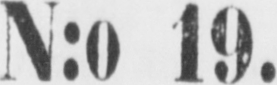N:o 19.
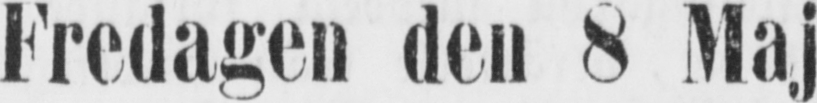Fredagen den 8 Maj
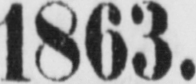1863.
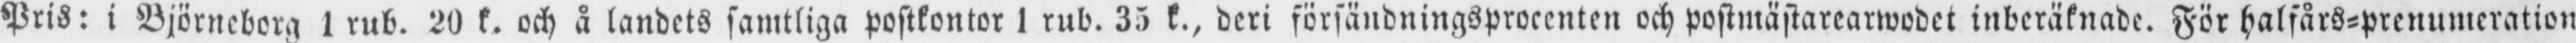Pris: i Björneborg 1 rub. 20 k. och å landets samtliga postkontor 1 rub. 35 k., deri försändningsprocenten och postmästarearwodet inberäknade. För halfårs-prenumeration
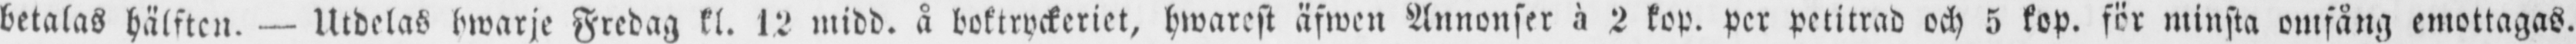betalas hälften. — Utdelas hwarje Fredag kl. 12 midd. å boktryckeriet, hwarest äfwen Annonser à 2 kop. per petitrad och 5 kop. för minsta omfång emottagas.
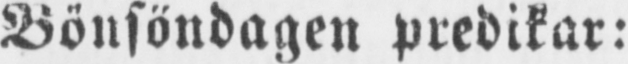Bönsöndagen predikar:
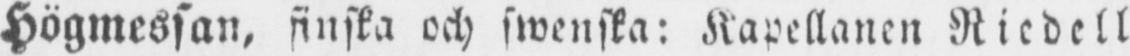Högmessan, finska och swenska: Kapellanen Riedell
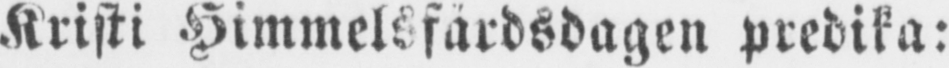Kristi Himmelsfärdsdagen predika:
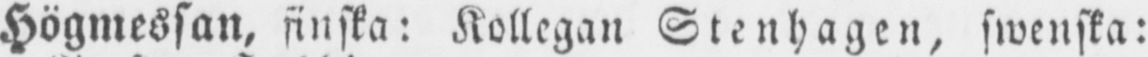Högmessan, finska: Kollegan Stenhagen, swenska:
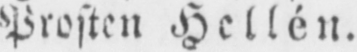Prosten Hellén.
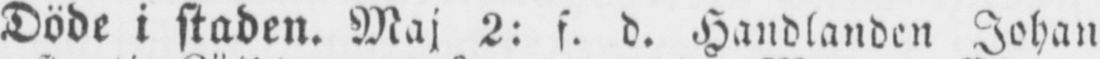Döde i staden. Maj 2: f. d. Handlanden Johan
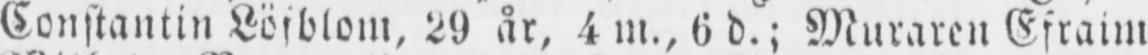Constantin Löjblom, 29 år, 4 m., 6 d.; Muraren Efraim
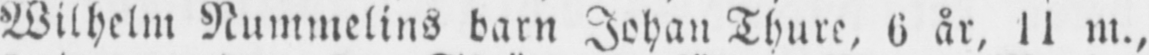Wilhelm Nummelins barn Johan Thure, 6 år, 11 m.,
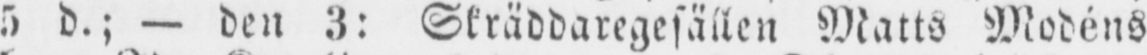5 d.; — den 3: Skräddaregefällen Matts Modéns
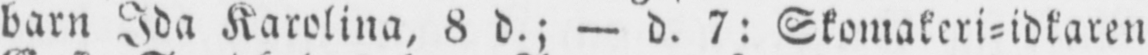barn Ida Karolina, 8 d.; — d. 7: Skomakeri-idkaren
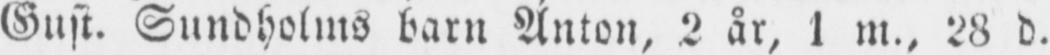Gust. Sundholms barn Anton, 2 år, 1 m., 28 d.
